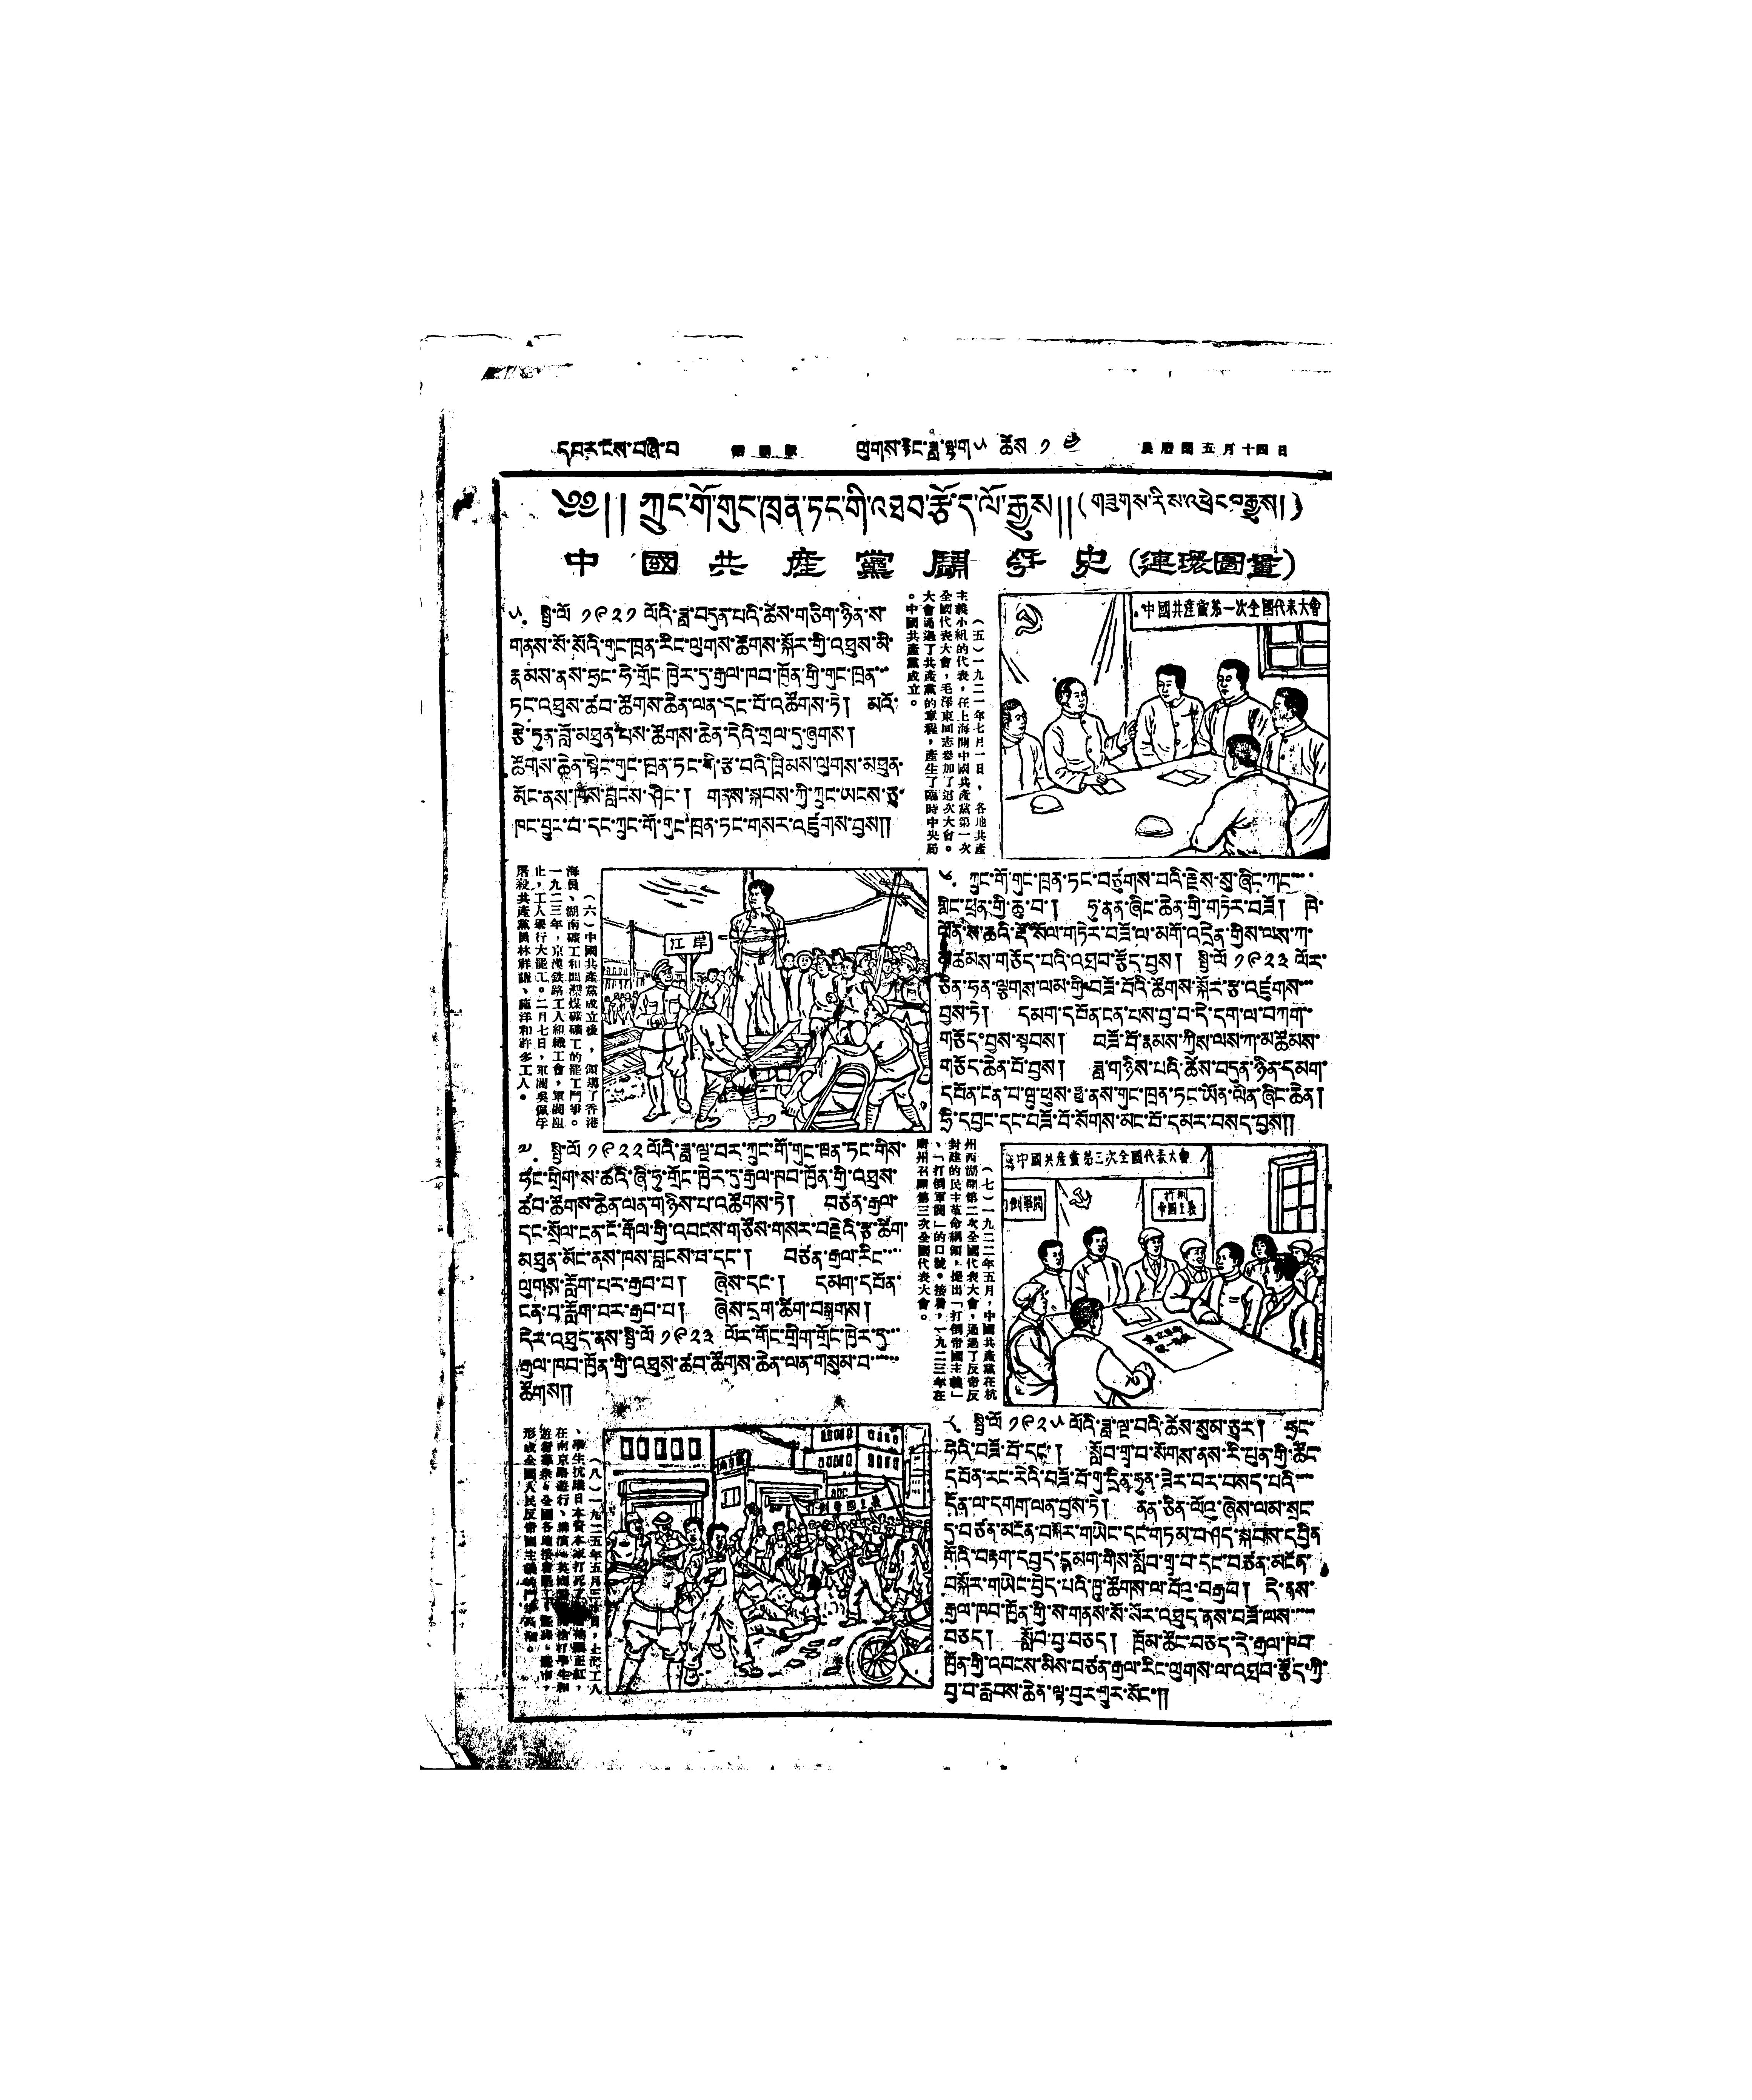དཔར་ངོས་བཞི་པ 第 四 版 ལུགས་རྙིང་ཟླ་ལྷག༥ ཚེས ༡༤ 農 曆 閏 五 月 十四 日
༄༅།། ཀུང་གོ་གུང་ཁྲན་ཏང་གི་འཐབ་རྩོད་ལོ་རྒྱུས།། ( གཟུགས་རིས་འཕྲེང བརྒྱུས། )
中 國 共 產 黨 鬥 爭 史 （連環圖畫）
中國共產黨第一次全國代表大會
（五）以九二一年七月一日，各地共產
主義小組的代表，在上海開中國共產黨第一次
全國代表大會，毛澤東同志參加了這次大會。
大會通過了共產黨的章程，產生了臨時中央局
。中國共產黨成立。
༥ སྤྱི་ལོ ༡༩༢༡ ལོའི་ཟླ་བདུན་པའི་ཚེས་གཅིག་ཉིན་ས་
གནས་སོ་སོའི་གུང་ཁྲན་རིང་ལུགས་ཚོགས་སྐོར་གྱི་འཐུས་མི་
རྣམས་ནས་ཧྲང་ཧེ་གྲོང་ཁྱེར་དུ་རྒྱལ་ཁབ་ཁྱོན་གྱི་གུང་ཁྲན་་་
ཏང་འཐུས་ཚབ་ཚོགས་ཆེན་ལན་དང་པོ་འཚོགས་ཏེ། མའོ་
རྩེ་ཏུན་བློ་མཐུན་པས་ཚོགས་ཆེན་དེའི་གྲལ་དུ་ཞུགས།
ཚོགས་ཆེན་སྟེང་གུང་ཁྲན་ཏང་གི་རྩ་བའི་ཁྲིམས་ལུགས་མཐུན་
མོང་ནས་ཁོས་བླངས་ཤིང་། གནས་སྐབས་ཀྱི་ཀྲུང་ཡངས་ཅུ་
ཁང་བྱུང་བ་དང་ཀྲུང་གོ་གུང་ཁྲན་ཏང་གསར་འཛུགས་བྱས༎
江 岸
（六）中國共產黨成立後，領導了香港
海員、湖南礦工和開灤煤礦礦工的罷工鬥爭。
一九二三年，京漢鉄路工人組織工會，軍閥阻
止，工人舉行大罷工。二月七日，軍閥吳佩孚
屠殺共產黨員林祥謙、施洋和許多工人。
༦ ཀྲུང་གོ་གུང་ཁྲན་ཏང་བཙུགས་པའི་རྗེས་སུ་ཞིང་ཀང་་་་་
གླིང་ཕྲན་གྱི་ཆུ་བ་། ཧུ་ནན་ཞིང་ཆེན་གྱི་གཏེར་བཟོ། ཁེ་
ལོན་ས་ཆའི་རྡོ་སོལ་གཏེར་བཟོ་ལ་མགོ་འདྲེན་གྱིས་ལས་ཀ་
མཚམས་གཅོད་པའི་འཐབ་རྩོད་བྱས། སྤྱི་ལོ ༡༩༢༣ ལོར་
ཅིན་ཧན་ལྕགས་ལམ་གྱི་བཟོ་པོའི་ཚོགས་སྐོར་རྩ་འཛུགས་་་
བྱས་ཏེ། དམག་དཔོན་ངན་པས་བྱ་བ་དེ་དག་ལ་བཀག་་
གཅོད་བྱས་སྟབས། བཟོ་བོ་རྣམས་ཀྱིས་ལས་ཀ་མཚོམས་
གཅོད་ཆེན་པོ་བྱས། ཟླ་གཉིས་པའི་ཚེས་བདུན་ཉིན་དམག་
དཔོན་ངན་པ་ཝུ་ཕུས་ཧྥུ་ནས་གུང་ཁྲན་ཏང་ཡོན་ལིན་ཞིང་ཆེན།
ཧྲི་དབྱང་དང་བཟོ་བོ་སོགས་མང་པོ་དམར་བསད་བྱས༎
中國共產黨第二次全國代表大會
打倒軍閥
打倒
帝國主義
建立革命
統一戰綫
（七）一九二二年五月，中國共產黨在杭
州西湖開第二次全國代表大會，通過了反帝反
封建的民主革命綱領，提出「打倒帝國主義」
、「打倒軍閥」的口號。接着，一九二三年在
廣州召開第三次全國代表大會。
༧ སྤྱི་ལོ ༡༩༢༢ ལོའི་ཟླ་ལྔ་བར་ཀྲུང་གོ་གུང་ཁྲན་ཏང་གིས་
ཧང་གྲིག་ས་ཆ་འི་ཞི་ཧུ་གྲོང་ཁྱེར་དུ་རྒྱལ་ཁབ་ཁྱོན་གྱི་འཐུས་
ཚབ་ཚོགས་ཆེན་ལན་གཉིས་པ་འཚོགས་ཏེ། བཙན་རྒྱལ་
དང་སྲོལ་ངན་ངོ་རྒོལ་གྱི་འབངས་གཙོས་གསར་བརྗེའི་རྩ་ཚིག་
མཐུན་མོང་ནས་ཁས་བླངས་བ་དང་། བཙན་རྒྱལ་རིང་་་་
ལུགས་རློག་པར་རྒྱབ་བ། ཞེས་དང་། དམག་དཔོན་
ངན་པ་རློག་པར་རྒྱབ་པ། ཞེས་དྲག་ཚིག་བསྒྲགས།
དེར་འཐུད་ནས་སྤྱི་ལོ ༡༩༢༣ ལོར་གོང་གྲིག་གྲོང་ཁྱེར་དུ་་་
རྒྱལ་ཁབ་ཁྱོན་གྱི་འཐུས་ཚབ་ཚོགས་ཆེན་ལན་གསུམ་པ་་་་་་
ཚོགས༎
南京路
打倒帝國主義
（八）一九二五年五月三十日，上海工人
、學生抗議日本資本家打死工人領袖顧正紅，
在南京路遊行、講演。英國督查開槍打學生和
遊行羣衆。全國各地接着罷工、罷課、罷市，
形成全國人民反帝國主義的鬥爭高潮。
༨ སྤྱི་ལོའི་ ༡༩༢༥ ལོའི་ཟླ་ལྔ་བའི་ཚེས་སུམ་ཅུར། ཧྲང་
ཧེའི་བཟོ་བོ་དང་། སློབ་གྲྭ་བ་སོགས་ནས་རི་པུན་གྱི་ཚོང་
དཔོན་རང་རེའི་བཟོ་བོ་གུ་དྲིན་ཧུན་ཟེར་བར་བསད་པའི་་་་
དོན་ལ་དགག་ལན་བྱས་ཏེ། ནན་ཅིན་ལོའུ་ཞེས་ལམ་སྲང་
དུ་བཙན་མངོན་བསྐོར་གཡེང་དང་གཏམ་བཤད་སྐབས་དབྱིན
རྒོའི་བརྟག་དབྱད་དམག་གིས་སློབ་གྲྭ་བ་དང་བཙན་མངོན་
བསྐོར་གཡེང་བྱེད་པའི་ཁྱུ་ཚོགས་ལ་བོའུ་བརྒྱབ། དེ་ནས་
རྒྱལ་ཁབ་ཁྱོན་གྱི་ས་གནས་སོ་སོར་འཐུད་ནས་བཟོ་ལས་་་་་
བཅད། སློབ་བྱ་བཅད། ཁྲོམ་ཚོང་བཅད་དེ་རྒྱལ་ཁབ་
ཁྱོན་གྱི་འབངས་མིས་བཙན་རྒྱལ་རིང་ལུགས་ལ་འཐབ་རྩོད་ཀྱི་
བྱ་བ་རླབས་ཆེན་ལྟ་བུར་གྱུར་སོང་།།
